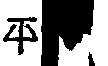平
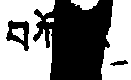བཀོ
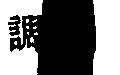調
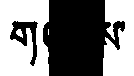ག   ས་
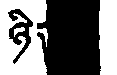ཉིད་
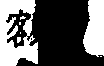客
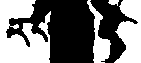རང་
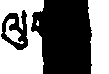ལུང
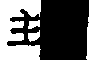主
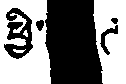ཕྱི་  ཊ
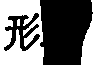形
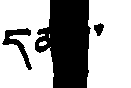དམ  ་
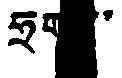ཧྲག  ་་
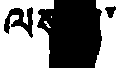ལས  ་
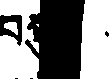བ
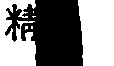精
